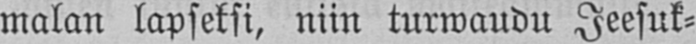malan lapseksi, niin turwaudu Jeesuk-
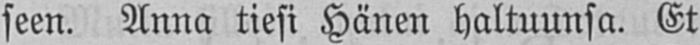seen. Anna tiesi Hänen haltuunsa. Et
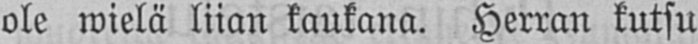ole wielä liian kaukana. Herran kutsu
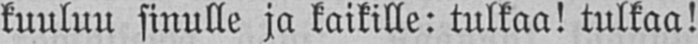kuuluu sinulle ja kaikille: tulkaa! tulkaa!
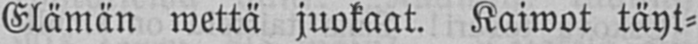Elämän wettä juokaat. Kaiwot täyt-
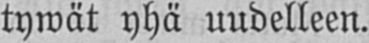tywät yhä uudelleen.
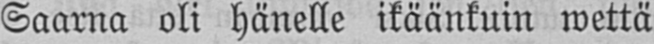Saarna oli hänelle ikäänkuin wettä
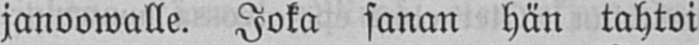janoowalle. Joka sanan hän tahtoi
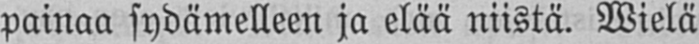painaa sydämelleen ja elää niistä. Wielä
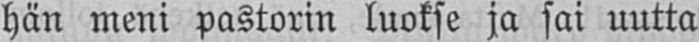hän meni pastorin luokse ja sai uutta
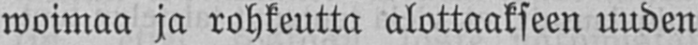woimaa ja rohkeutta alottaakseen uuden
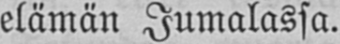elämän Jumalassa.
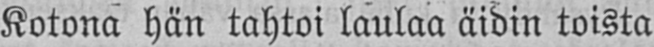Kotona hän tahtoi laulaa äidin toista
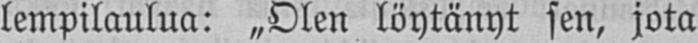lempilaulua: „Olen löytänyt sen, jota
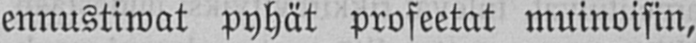ennustiwat pyhät profeetat muinoisin,
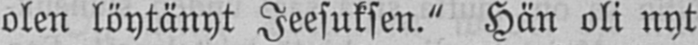olen löytänyt Jeesuksen." Hän oli nyt
